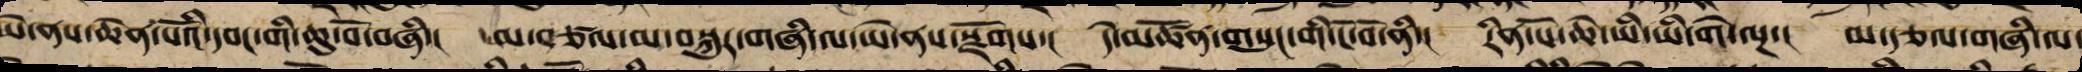ཡེ་ནས་ཆེན་པོའི་དབང་གི་ཆུ་བོ་བཞི་། མ་བཙལ་མ་བསྐུར་གཞི་ལ་ཡེ་ནས་སྫོགས་། དེ་མཚོན་གསུང་གི་ངོ་བོ་ནི་། རིན་པོ་ཆེ་ཡི་ཡི་གེ་ལྔ་། མ་རྩལ་གཞི་ལ་
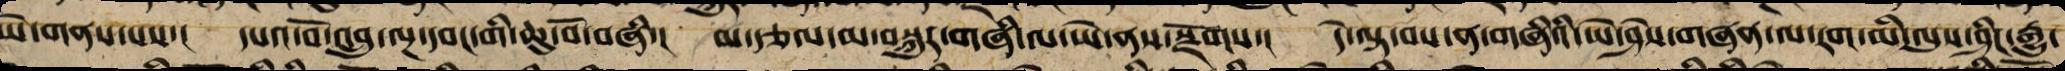ཡེ་གནས་པས་། དཔའ་བོ་འབྲུ་ལྔ་དབང་གི་ཆུ་བོ་བཞི་། མ་རྩལ་མ་བསྐུར་གཞི་ལ་ཡེ་ནས་སྫོགས་། དེ་ལྟ་བས་ན་གཞིའི་ཡེ་ཤེས་གཞན་ལ་རག་མི་ལུས་ཤིང་རྒྱུ་
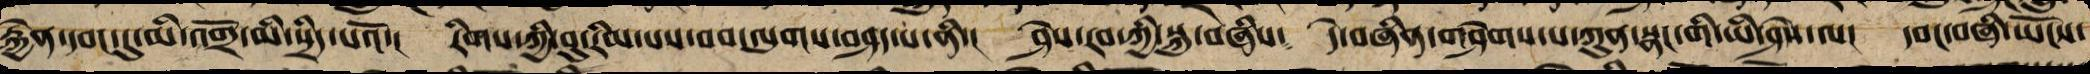རྐྱེན་གྱི་དབང་དུ་འགྲོ་མི་སྲིད་པའོ་། རིགས་ཀྱི་བུ་རིམ་པས་བབས་ལུགས་བཤད་པ་ནི་། ཤེས་རབ་ཀྱི་སྐུ་བཞིས་ དེ་བཞིན་གཤེགས་པ་ཀུན་སྣང་གི་ཡེ་ཤེས་ལ་། དབང་བཞི་ཡོངས་
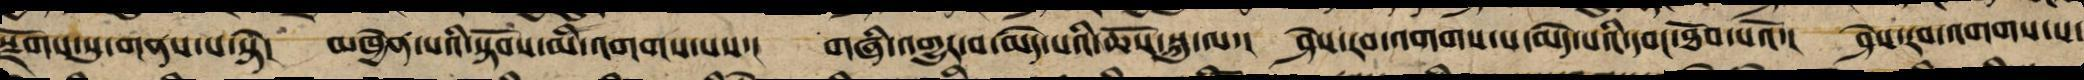སྫོགས་སུ་གནས་པ་སྟེ་། མཁྱེན་པའི་སྟོབས་མི་འགགས་པས་། གཞི་འགྱུར་བ་མེད་པའི་ཆོས་སྐུ་ལ་། ཤེས་རབ་འགགས་པ་མེད་པའི་དབང་ཐོབ་པའོ།་ ཤེས་རབ་འགགས་པ་
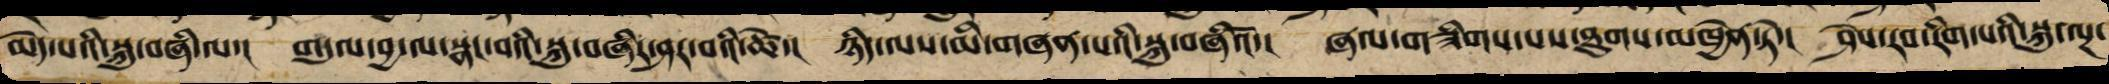མེད་པའི་སྐུ་བཞི་ལ་། གདུལ་བྱ་ལ་སྣང་བའི་སྐུ་བཞི་ཤར་བའི་ཚེ་། ཉིད་ལས་མི་གཞན་པའི་སྐུ་བཞིའོ་། ཞལ་གཟིགས་པས་ཐུགས་མཁྱེན་ཏེ་། ཤེས་རབ་རིག་པའི་སྐུ་ལྔ་
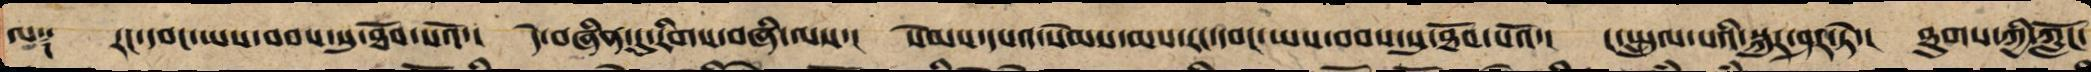ལ༑ རང་དབང་ཡས་བབས་སུ་ཐོབ་པའོ་། དེ་བཞིན་དུ་རིགས་བཞི་ལས་། སེམས་དཔའ་སེམས་མ་རང་དབང་ཡས་བབས་སུ་ཐོབ་པའོ་། ང་སྤྲུལ་པའི་སྐུར་ཤར་ཏེ་། ཐུགས་ཀྱི་ཀློང་
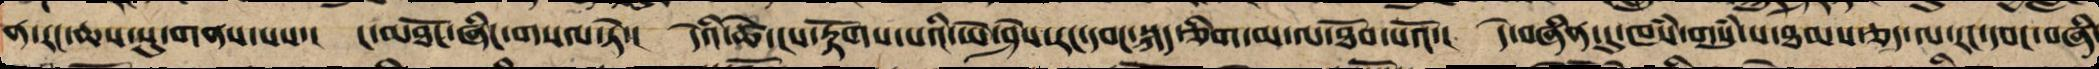ན་རང་ཆས་སུ་གནས་པས་། ང་མཐོང་ཞིང་གསལ་ཏེ་། དེའི་ཚེ་ངས་རྟོགས་པའི་ཡེ་ཤེས་རང་དབང་སྐད་ཅིག་མ་ལ་ཐོབ་པོའོ་། དེ་བཞིན་དུ་ཁཾས་གསུཾ་པ་ཐམས་ཅད་རང་ལ་དབང་བཞི
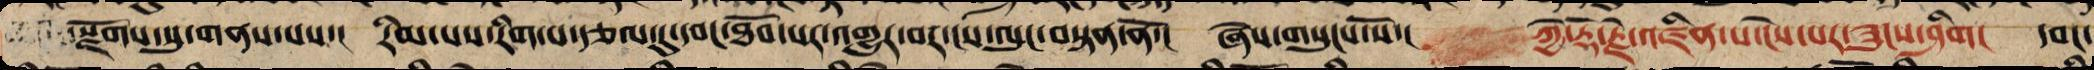སྫོགས་སུ་གནས་པས་། རིམ་པས་རིག་པ་རྩལ་གྱི་དབང་ཐོབ་པར་འགྱུར་བར་ངས་ལུང་བསྟན་ཏོ་། ཞེས་གསུངས་སོ་། ཀྱེ་རྡོ་རྗེ་འཛིན་པ་ལེགས་པར་ཟུངས་ཤིག། དབང་
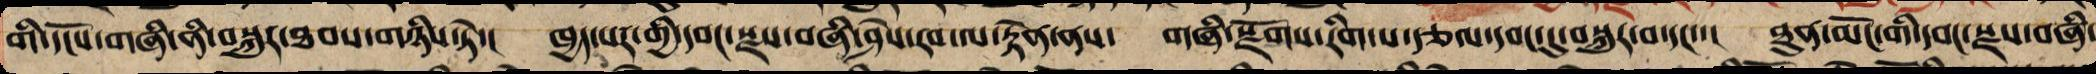གི་དངོས་གཞི་ནི་བསྐུར་ཐབས་གཉིས་ཏེ་། ཁྱད་པར་གྱི་དབང་སྫས་བཞི་ཤེས་རབ་ལ་རྟེན་ནས་། གཞི་སྫོགས་རིག་པ་རྩལ་དབང་དུ་བསྐུར་བ་དང་་། ཐུན་མོང་གི་དབང་སྫས་བཞི་
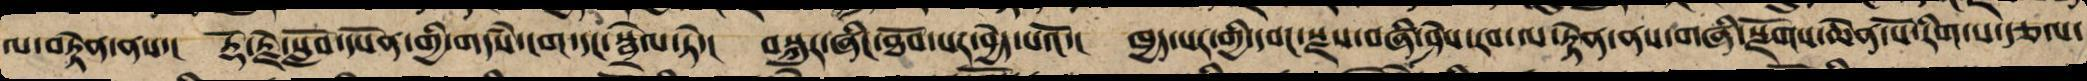ལ་བརྟེན་ནས་། རྡོ་རྗེ་སློབ་དཔོན་གྱི་གདཾས་ངག་དང་སྦྲེལ་ཏེ་། བསྐུར་ཞིང་ཐོབ་པར་བྱེད་པའོ་། ཁྱད་པར་གྱི་དབང་སྫས་བཞི་ཤེས་རབ་ལ་རྟེན་ནས་གཞི་སྫོགས་ཆེན་པོ་རིག་པ་རྩལ་
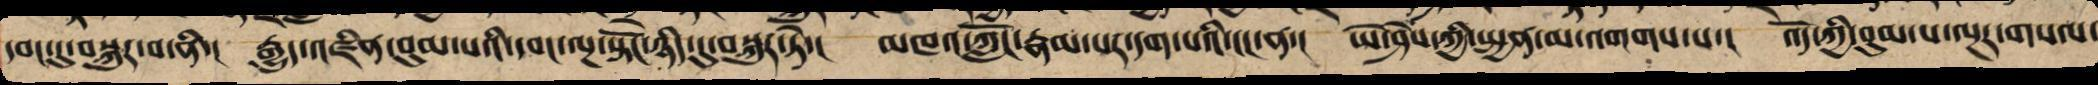དབང་དུ་བསྐུར་བ་དང་། བརྒྱུད་འཛིན་བུམ་པའི་དབང་ལྔ་སྟོང་ཉིད་དུ་བསྐུར་ཏེ་། མཁའ་ཀློང་རྣམ་པར་དག་པའི་ངང་ན་། ཡེ་ཤེས་ཀྱི་སྤྱན་མ་འགགས་པ་། འོད་ཀྱི་བུམ་པ་ལྔར་གསལ་
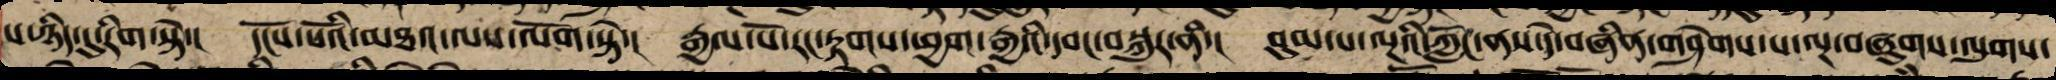པ་ཉིད་དུ་རིག་སྟེ་། དངོས་པོའི་མཐའ་ལས་ལོག་སྟེ་། རྒྱལ་པོ་རང་རྟགས་ཕྱག་རྒྱའི་དབང་བསྐུར་ནི་། བུམ་པ་ལྔའི་ཀློང་ན་དེ་བཞིན་གཤེགས་པ་ལྔ་བཞུགས་ལུགས་
